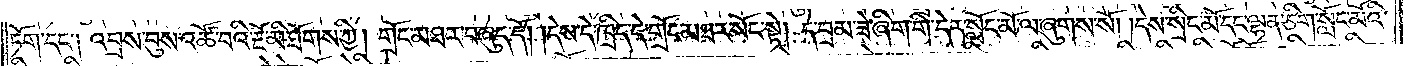ཏོག་དང༌། འབྲས་བུས་འཚོ་བའི་རྔོ་མི་ཐོགས་ཀྱི། གྲོང་མཐར་བཞུད་དོ། །དེས་དེ་ཁྲིད་དེ་གྲོང་མཐར་སོང་སྟེ། དེ་བྲམ་ཟེ་ཞིག་གི་དེར་སློང་མོ་ལ་ཞུགས་སོ། །དེས་སྲིང་མོ་དང་ལྷན་ཅིག་སློང་མོའི་
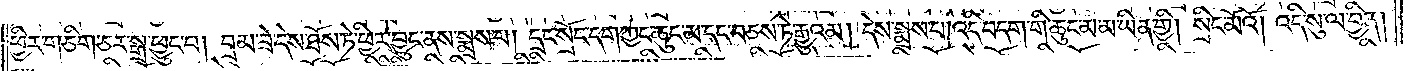ཕྱིར་གཅིག་ཅར་སྒྲ་ཕྱུང་བ། བྲམ་ཟེ་དེས་ཐོས་ཏེ་ཕྱིར་བྱུང་ནས་སྨྲས་པ། དྲང་སྲོང་དག་ཀྱང་ཆུང་མ་དང་བཅས་ཏེ་རྒྱུའམ། དེས་སྨྲས་པ། འདི་བདག་གི་ཆུང་མ་མ་ཡིན་གྱི། སྲིང་མོའོ། །འདི་སུ་ལ་བྱིན།
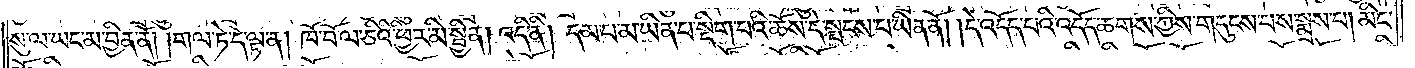སུ་ལ་ཡང་མ་བྱིན་ནོ། །གལ་ཏེ་དེ་ལྟ་ན། ཁོ་བོ་ལ་ཅིའི་ཕྱིར་མི་སྦྱིན། འདི་ནི། དམ་པ་མ་ཡིན་པ་སྡིག་པའི་ཆོས་དེ་སྤངས་པ་ཡིན་ནོ། །དེ་འདོད་པའི་འདོད་ཆགས་ཀྱིས་གདུངས་པས་སྨྲས་པ། མིང་
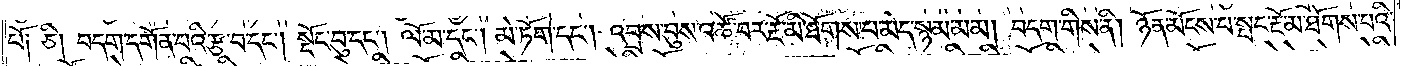པོ། ཅི། བདག་དགོན་པའི་རྩ་བ་དང༌། སྡོང་བུ་དང༌། ལོ་མ་དང༌། མེ་ཏོག་དང༌། འབྲས་བུས་འཚོ་བར་རྔོ་མི་ཐོགས་པ་མེད་སྙམ་མམ། བདག་གིས་ནི། ཉོན་མོངས་པ་སྤང་རྔོ་མ་ཐོགས་པའི་
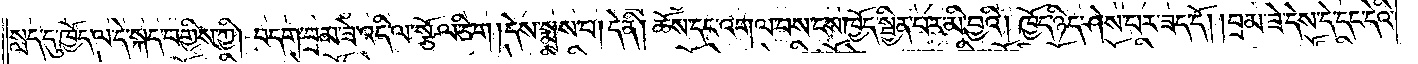སླད་དུ་ཁྱོད་ལ་དེ་སྐད་བགྱིས་ཀྱི། བདག་བྲམ་ཟེ་འདི་ལ་སྩོལ་ཅིག །དེས་སྨྲས་པ། དེ་ནི། ཆོས་དང་འགལ་བས་ངས་ཁྱོད་སྦྱིན་པར་མི་བྱའི། ཁྱོད་ཉིད་ཤེས་པར་ཟད་དོ། །བྲམ་ཟེ་དེས་དེ་དང་དེའི་
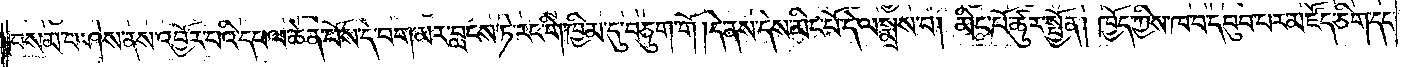བསམ་པ་ཤེས་ནས་འབྱོར་བའི་དཔལ་ཆེན་པོས་དེ་བག་མར་བླངས་ཏེ་རང་གི་ཁྱིམ་དུ་བཅུག་གོ །དེ་ནས་དེས་མིང་པོ་དེ་ལ་སྨྲས་པ། མིང་པོ་ཚུར་སྤྱོན། ཁྱོད་ཀྱིས་ཁ་བ་དབུབ་པར་མཛོད་ཅིག་དང་
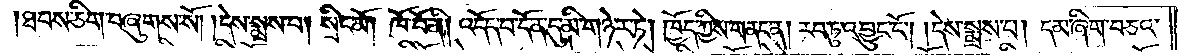ཐབས་ཅིག་བཞུགས་སོ། །དེས་སྨྲས་པ། སྲིང་མོ། ཁོ་བོ་ནི། འདོད་པ་དོན་དུ་མི་གཉེར་ཏེ། ཁྱོད་ཀྱིས་གནང་ན། རབ་ཏུ་འབྱུང་ངོ༌། །དེས་སྨྲས་པ། དམ་ཞིག་བཅའ་
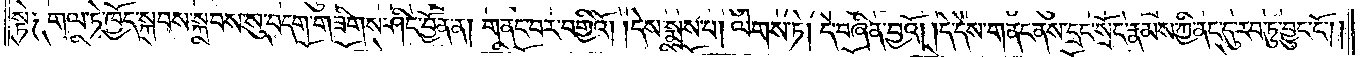སྟེ། གལ་ཏེ་ཁྱོད་སྐབས་སྐབས་སུ་བདག་གཟིགས་ཤིང་བྱོན་ན། གནང་བར་བགྱིའོ། །དེས་སྨྲས་པ། ལེགས་ཏེ། དེ་བཞིན་བྱའོ། །དེ་དེས་གནང་ནས་དྲང་སྲོང་རྣམས་ཀྱི་ནང་དུ་རབ་ཏུ་བྱུང་ངོ༌། །
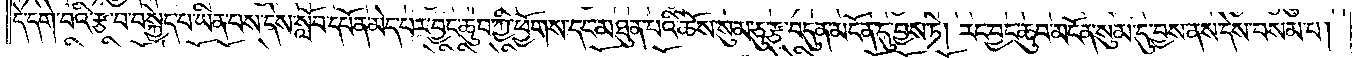དེ་དགེ་བའི་རྩ་བ་བསྐྱེད་པ་ཡིན་པས་དེས་སློབ་དཔོན་མེད་པར་བྱང་ཆུབ་ཀྱི་ཕྱོགས་དང་མཐུན་པའི་ཆོས་སུམ་ཅུ་རྩ་བདུན་མངོན་དུ་བྱས་ཏེ། རང་བྱང་ཆུབ་མངོན་སུམ་དུ་བྱས་ནས་དེས་བསམ་པ།
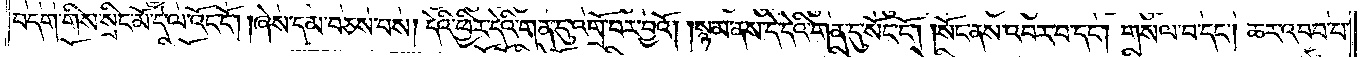བདག་གིས་སྲིང་མོ་དེ་ལ་འོང་ངོ༌། །ཞེས་དམ་བཅས་པས། དེའི་ཕྱིར་དེའི་གན་དུ་འགྲོ་བར་བྱའོ། །སྙམ་ནས་དེ་དེའི་གན་དུ་སོང་ངོ༌། །སོང་ནས་འབར་བ་དང༌། གསལ་བ་དང༌། ཆར་འབབ་པ་
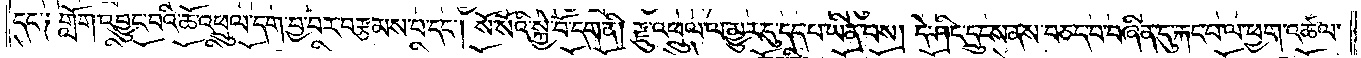དང༌། གློག་འབྱུང་བའི་ཆོ་འཕྲུལ་དག་བྱ་བར་བརྩམས་པ་དང༌། སོ་སོའི་སྐྱེ་བོ་དག་ནི། རྫུ་འཕྲུལ་ལ་མྱུར་དུ་དད་པ་ཡིན་པས། དེ་ཤིང་དྲུངས་ནས་བཅད་པ་བཞིན་དུ་རྐང་པ་ལ་ཕྱག་འཚལ་
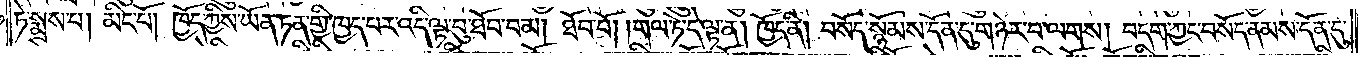ཏེ་སྨྲས་པ། མིང་པོ། ཁྱོད་ཀྱིས་ཡོན་ཏན་གྱི་ཁྱད་པར་འདི་ལྟ་བུ་ཐོབ་བམ། ཐོབ་བོ། གལ་ཏེ་དེ་ལྟ་ན། ཁྱོད་ནི། བསོད་སྙོམས་དོན་དུ་གཉེར་བ་ལགས། བདག་ཀྱང་བསོད་ནམས་དོན་དུ་
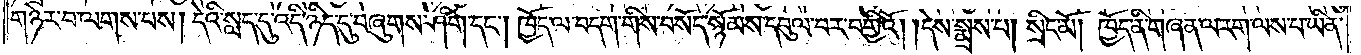གཉེར་བ་ལགས་པས། དེའི་སླད་དུ་འདི་ཉིད་དུ་བཞུགས་ཤིག་དང༌། ཁྱོད་ལ་བདག་གིས་བསོད་སྙོམས་དབུལ་བར་བགྱིའོ། །དེས་སྨྲས་པ། སྲིང་མོ། ཁྱོད་ནི་གཞན་ལ་རག་ལས་པ་ཡིན་
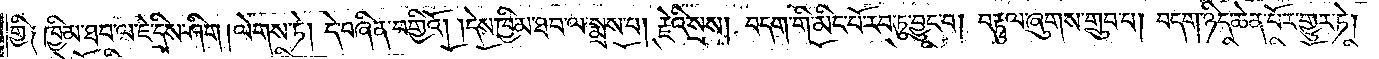གྱི༑ ཁྱིམ་ཐབ་ལ་ཇེ་དྲིས་ཤིག །ལེགས་ཏེ། དེ་བཞིན་བགྱིའོ། །དེས་ཁྱིམ་ཐབ་ལ་སྨྲས་པ། རྗེའི་སྲས། བདག་གི་མིང་པོ་རབ་ཏུ་བྱུང་བ། བརྟུལ་ཞུགས་གྲུབ་པ། བདག་ཉིད་ཆེན་པོར་གྱུར་ཏེ།
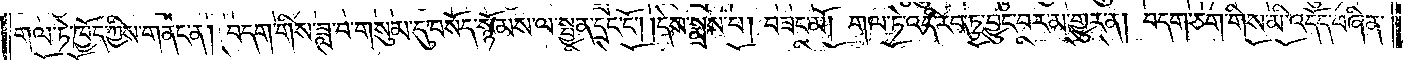གལ་ཏེ་ཁྱོད་ཀྱིས་གནང་ན། བདག་གིས་ཟླ་བ་གསུམ་དུ་བསོད་སྙོམས་ལ་སྤྱན་དྲང་ངོ༌། །དེས་སྨྲས་པ། བཟང་མོ། གལ་ཏེ་འདི་རབ་ཏུ་བྱུང་བར་མ་གྱུར་ན། བདག་ཅག་གིས་མི་འདོད་བཞིན་
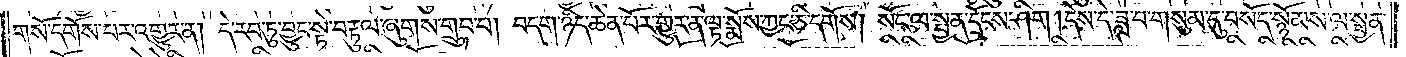གསོ་དགོས་པར་འགྱུར་ན། དེ་རབ་ཏུ་བྱུང་སྟེ་བརྟུལ་ཞུགས་གྲུབ་པ། བདག་ཉིད་ཆེན་པོར་གྱུར་ན་ལྟ་སྨོས་ཀྱང་ཅི་དགོས། སོང་ལ་སྤྱན་དྲོངས་ཤིག །དེས་དེ་ཟླ་བ་གསུམ་དུ་བསོད་སྙོམས་ལ་སྤྱན་
